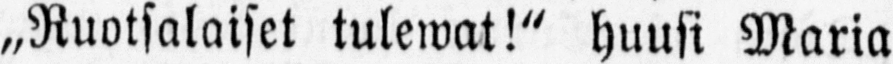„Ruotsalaiset tulewat!" huusi Maria
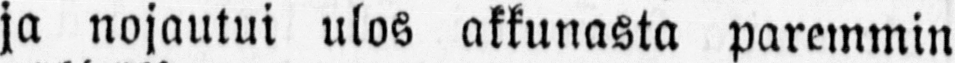ja nojautui ulos akkunasta paremmin
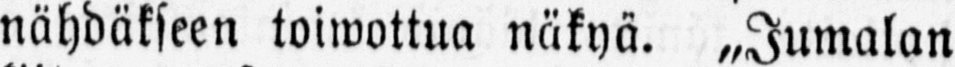nähdäkseen toiwottua näkyä. „Jumalan
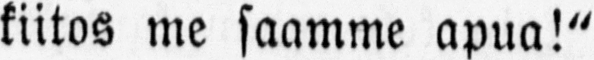kiitos me saamme apua!"
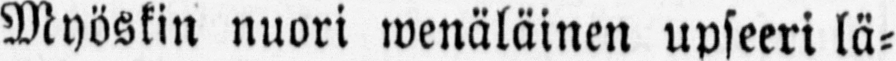Myöskin nuori wenäläinen upseeri lä-
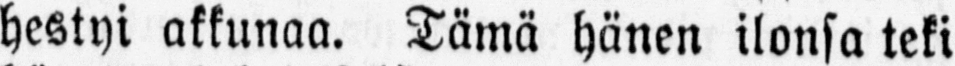hestyi akkunaa. Tämä hänen ilonsa teki
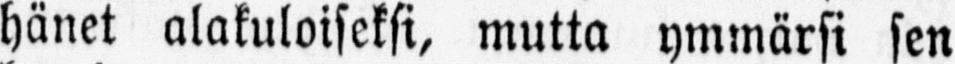hänet alakuloiseksi, mutta ymmärsi sen
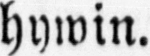hywin.
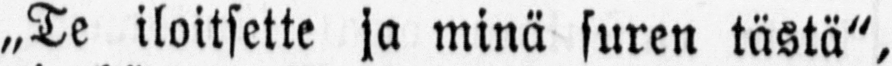„Te iloitsette ja minä suren tästä",
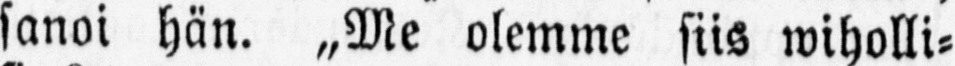sanoi hän. „Me olemme siis wiholli-
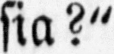sia?"
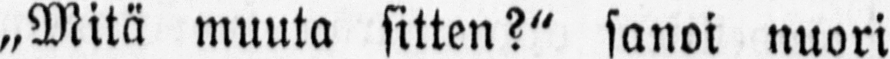„Mitä muuta sitten?" sanoi nuori
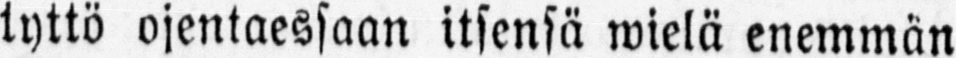tyttö ojentaessaan itsensä wielä enemmän
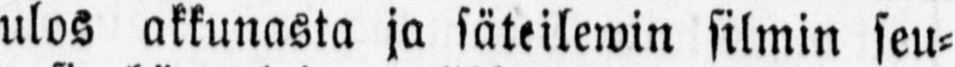ulos akkunasta ja säteilewin silmin seu-
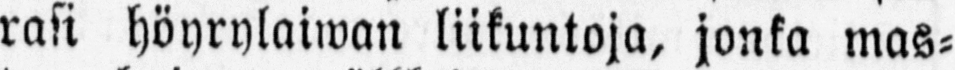rasi höyrylaiwan liikuntoja, jonka mas-
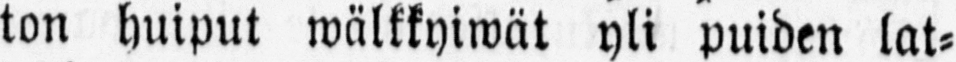ton huiput wälkkyiwät yli puiden lat-
